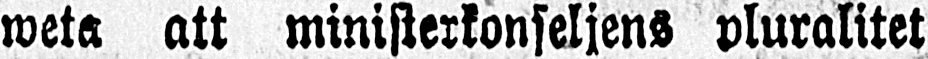weta att ministerkonseljens pluralitet
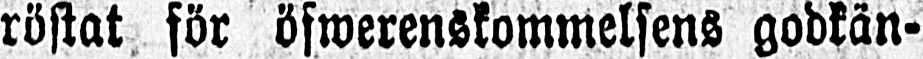röstat för öfwerenskommelsens godkän-
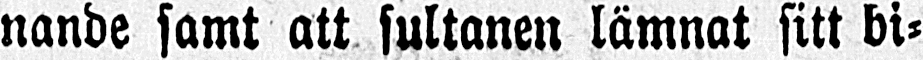nande samt att sultanen lämnat sitt bi-
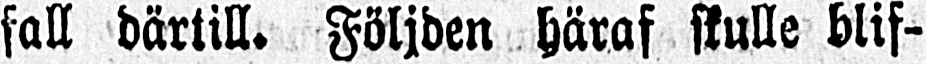fall därtill. Följden häraf skulle blif-
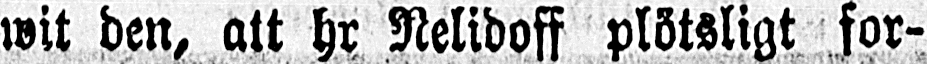wit den, att hr Nelidoff plötsligt for-
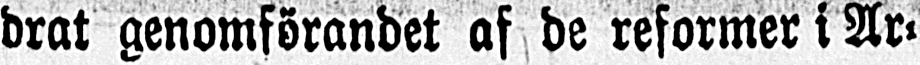drat genomförandet af de reformer i Ar-
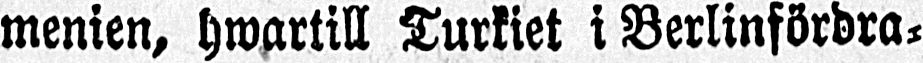menien, hwartill Turkiet i Berlinfördra-
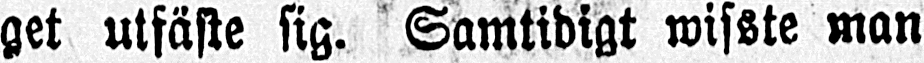get utfäste sig. Samtidigt wisste man
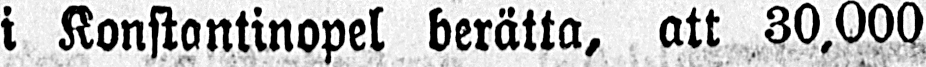i Konstantinopel berätta, att 30,000
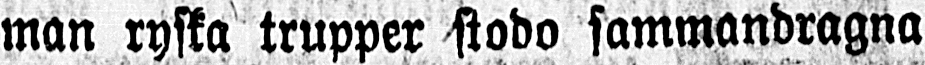man ryska trupper stodo sammandragna
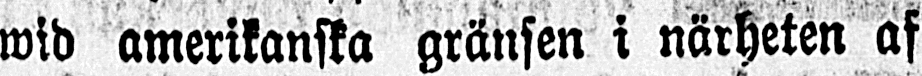wid amerikanska gränsen i närheten af
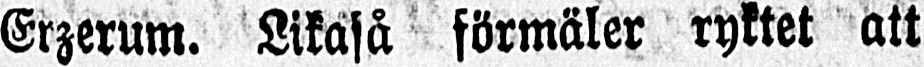Erzerum. Likaså förmäler ryktet att
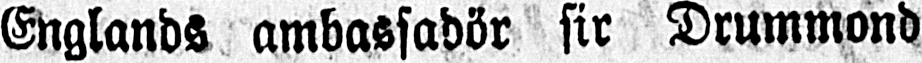Englands ambassadör sir Drummond
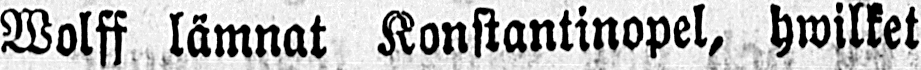Wolff lämnat Konstantinopel, hwilket
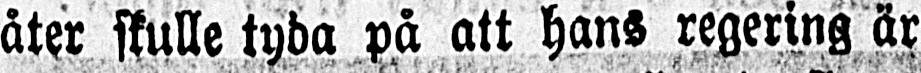åter skulle tyda på att hans regering är
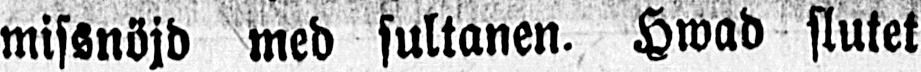missnöjd med sultanen. Hwad slutet
